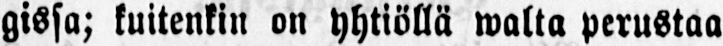gissa; kuitenkin on yhtiöllä walta perustaa
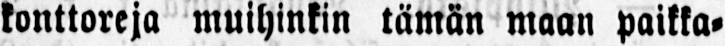konttoreja muihinkin tämän maan paikka-
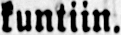kuntiin.
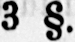3 §.
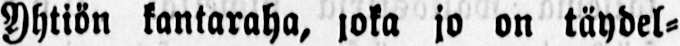Yhtiön kantaraha, joka jo on täydel-
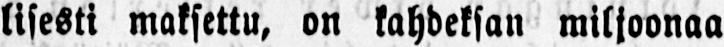lisesti maksettu, on kahdeksan miljoonaa
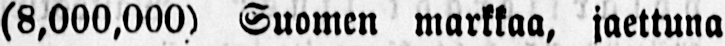(8,000,000) Suomen markkaa, jaettuna
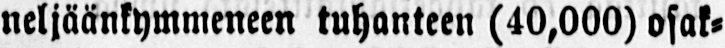neljäänkymmeneen tuhanteen (40,000) osak-
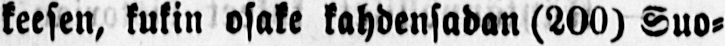keesen, kukin osake kahdensadan (200) Suo-
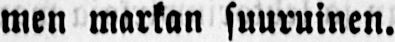men markan suuruinen.
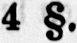4 §.
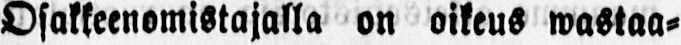Osakkeenomistajalla on oikeus wastaa-
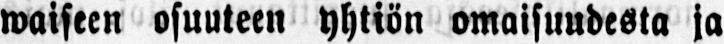waiseen osuuteen yhtiön omaisuudesta ja
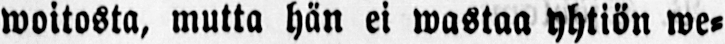woitosta, mutta hän ei wastaa yhtiön we-
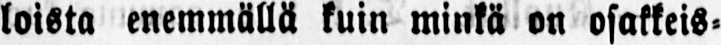loista enemmällä kuin minkä on osakkeis-
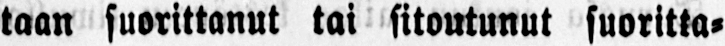taan suorittanut tai sitoutunut suoritta-
